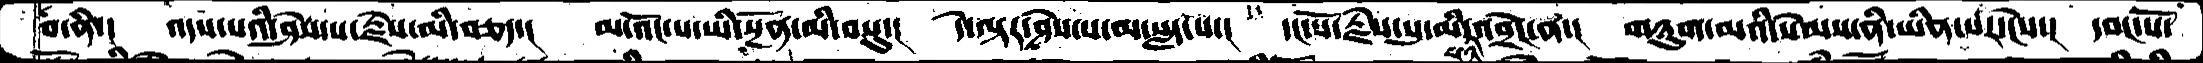བ་ནི་། འདས་པའི་ཤེས་པ་རྗེས་མི་བཅད་། མ་འོང་པ་ཡི་སྔོན་མི་བསུ་། དེ་ལྟར་ཤེས་པ་མ་སླད་པ་། དང་པོ་རྗེས་སུ་མི་འབྲེང་ན་། གཉུག་མའི་སེམས་ནི་ཡིན་པར་ངེས་། དབང་པོ་
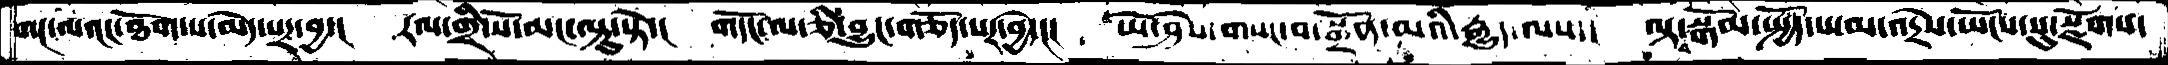གང་ལའང་ཐོག་པ་མེད་པར་བྱ་། རལ་གྲི་སོ་མང་ལྟུ་སྟེ་། གདོང་ལ་ཅི་བྱུང་གཅོད་པར་བྱེད་། ཡེ་ཤེས་གསང་བ་སྒྲོན་མའི་རྒྱུད་ལས་། ལྟ་བསྒོམ་སྤྱོད་པ་མ་འདྲེས་ཡོངས་སུ་སྫོགས་
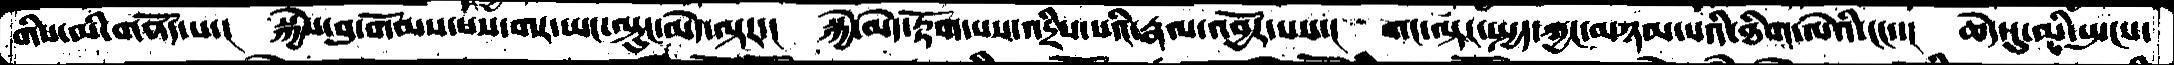གིས་མི་གནོད་པ་། སྐྱེས་བུ་གོམས་པས་གར་ཡང་ལྟུང་མེད་ལྟར་། སྐྱེ་མེད་རྟོག་པས་འདྲིས་པའི་རྣལ་འབྱོར་པས་། གང་ལྟར་སྤྱད་ཀྱང་མཉམ་པའི་ཐིག་ལེའི་ངང་་། ཆེད་དུ་མི་སྤངས་
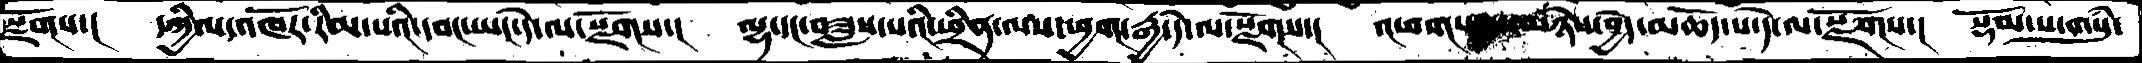སྫོགས་།  དཀྱིལ་འཁོར་རིམ་པའི་དབང་ཡང་དེ་ལ་སྫོགས་། ལྷ་དང་བཟླས་པའི་ཕྲིན་ལས་ཕྱག་རྒྱ་དེ་ལ་སྫོགས་། འཕགས་པས་མཉེས་བྱེད་མཆོད་པ་དེ་ལ་སྫོགས་། སྡོམ་པ་གསུཾ་
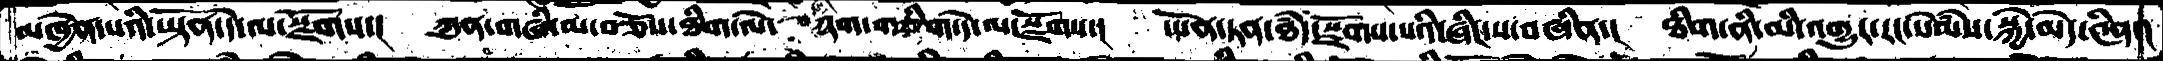མཁྱེན་པའི་ཡྟོན་དེ་ལ་སྫོགས་། ཀུན་གཞི་མ་བཅོས་ཐིག་ལེ་ཉག་གཅིག་དེ་ལ་སྫོགས་། ཡོན་ཏན་ཐཾད་སྫོགས་པའི་ཞིང་ས་བཞིན་། ཐིག་ནི་མི་འགྱུར་རང་སེམཾས་སྐྱེ་མེད་༤ིན་།
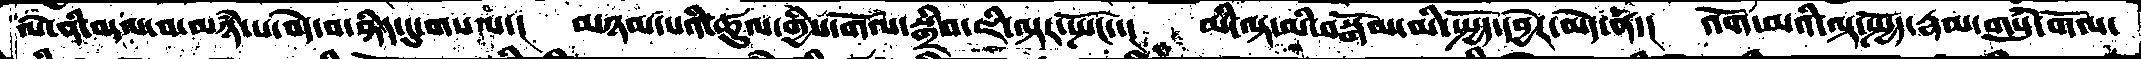ལེ་ནི་བདལ་བ་མཉཾ་པ་བདེ་བ་ཤིད་དུ་གསལ་། མཉམ་པའི་ཚུལ་གྱིས་གོལ་སྒྲིབ་ཇི་ལྟར་སྤོང་་། མི་ལྟ་མི་བསྒོམ་མི་སྤྱོད་དབྱེར་མེད་ནི་། འོག་མའི་ལྟ་སྤྱོད་རྣམ་གསུཾ་གོལ་
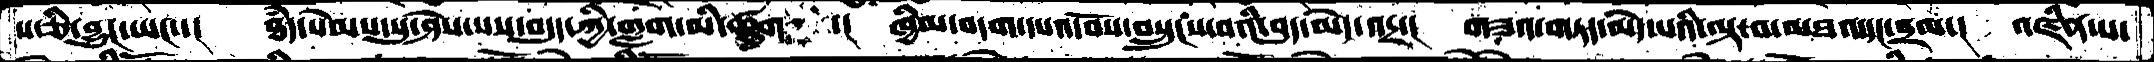པ་ཅི་བྱུང་ཡང་་། ཐཾད་སེམས་སུ་ཤེས་པས་བདུད་ཀྱི་གླག་མི་ཚུགས་། ཁྱིམ་བདག་དཔའ་བོས་བསྲུངས་བའི་བུད་མེད་འདྲ་། གཟའ་གཏད་མེད་པའི་ལྟ་བ་མཐའ་དང་བྲལ་། འཛིན་པ་
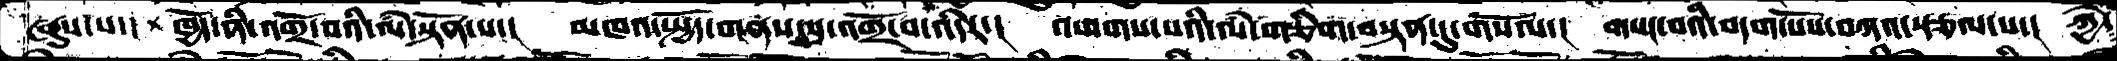ཞུས་པ་། ཁྱོད་ནི་འགྲོ་བའི་ལཾ་སྟོན་པ་། མཁའ་སྤྱོད་གནས་སུ་འགྲོ་བ་འདིར་། འགགས་པའི་ལཾ་གཅིག་བསྟན་དུ་གསོལ་། གསང་བའི་བདག་པོས་བཀའ་སྩལ་པ་། ཀྱེ༴
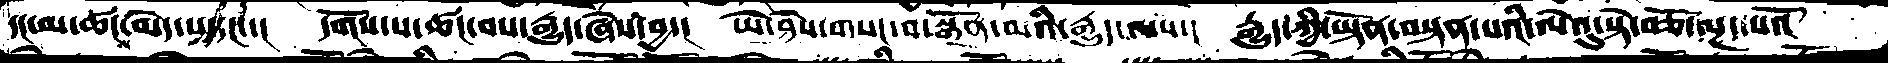དང་མ་ཚངས་མེད་པ་དང་། དགོས་པ་ཚང་བས་རྒྱུད་ཞེས་བྱ་། ཡེ་ཤེས་གསང་བ་སྒྲོན་མའི་རྒྱུད་ལས་། རྒྱུད་ཀྱི་ཡྟོན་བསྟན་པའི་ལེའུ་སྟེ་བཅོ་ལྔ་པའོ་།
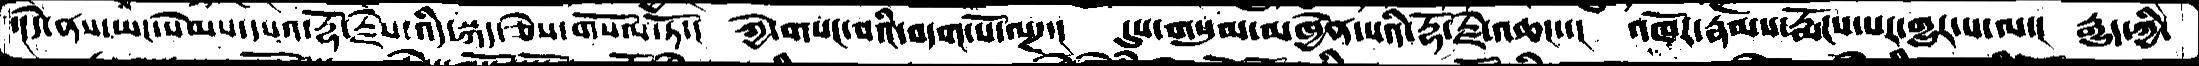་།དེ་ནས་ཡང་སེམས་དཔའ་རྡོ་རྗེས་འདི་སྐད་ཅེས་གསོལ་ཏོ་། ཀྱེ་གསང་བའི་བདག་པོ་ལཌ་། དུས་གསུམ་མཁྱེན་པའི་རྡོ་རྗེ་འཆང་་། འཁོར་རྣམས་རྨོངས་པར་གྱུར་པ་ལ་། རྒྱུད་ཀྱི་
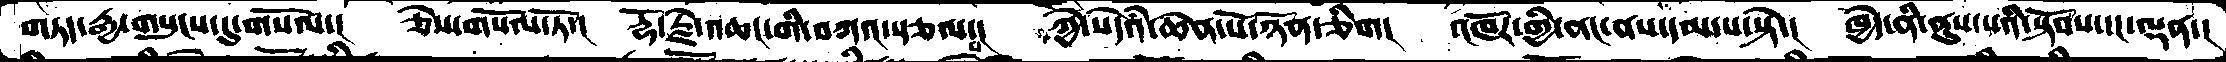གཏད་རྒྱ་གསུངས་དུ་གསོལ་། ཅེས་གསོལ་ཏོ་། རྡོ་རྗེ་འཆང་གི་བཀའ་སྩལ་པ་། ཀྱེ་སེདཾའ་ཆེན་པོ་ཉོན་ཅིག་། འཁོར་གྱི་ནང་ནས་དམ་པ་སྟེ་། ཁྱེད་ནི་ནུས་པའི་སྟོབས་དང་ལྡན་།
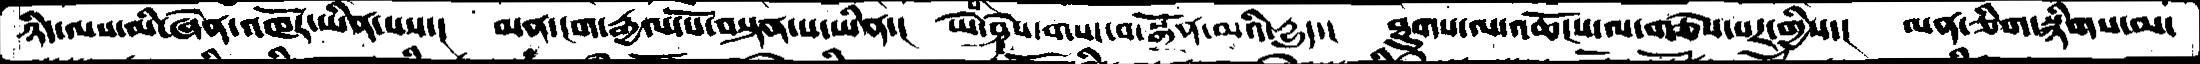ཉིད་ལས་མི་ཞེན་འཁོར་ཡིན་པས་། མན་ངག་རྒྱལ་པོ་བསྟན་པ་ཡིན་། ཡེ་ཤེས་གསང་བ་སྒྲོན་མའི་དྱུད་། ཐུགས་ལ་འཆོངས་ལ་གཅེས་པར་གྱིས་། ལན་ཅིག་སྙིགས་མ་
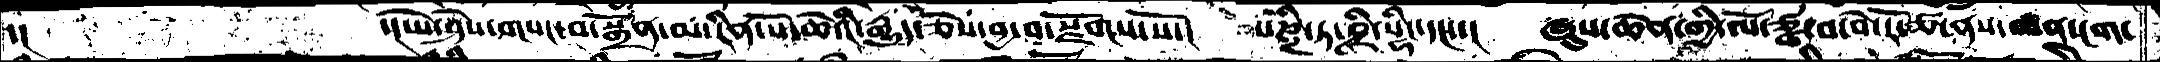་།       ་།ཡེ་ཤེས་གསང་བ་སྒྲོན་མ་རིན་པོ་ཆེའི་རྒྱུད་ཅེས་བྱ་བ་སྫོགས་སོ་། པཎྚི་ཏ་ཤྲི་སིངྷ་དང་་། ཞུས་ཆེན་གྱི་ལོ་ཙྪ་བ་བེ་རོ་ཙ་ནས་མན་ངག་
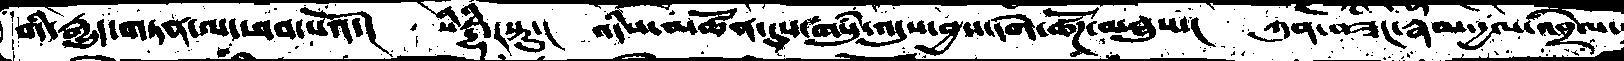གི་རྒྱུད་གཏན་ལ་ཕབ་པའོ་། སིཏྡྷི་རསྟུ་། འདིས་མཚོན་དུས་གསུཾ་འདུས་བྱས་དགེ་ཚོཌ་མཐུས་། ཀུན་བཟང་རྣམ་རྒྱལ་འབྲེལ་
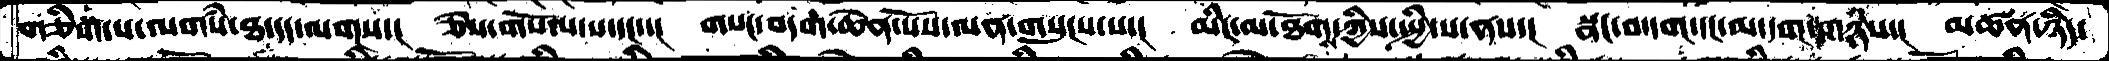གཅིག་པ་ལགསཾ་ཐ་དད་ལགས་། ཅེས་གསོལ་པ་དང་་། གསང་བདག་ཆེན་པོས་ལན་གསུངས་པ་། མིང་མ་ཐོགས་ཀྱིས་སྤྱི་པ་ནས་། སྣང་བ་དག་དང་མ་དག་གཉིས་། མཚན་ཉིད་
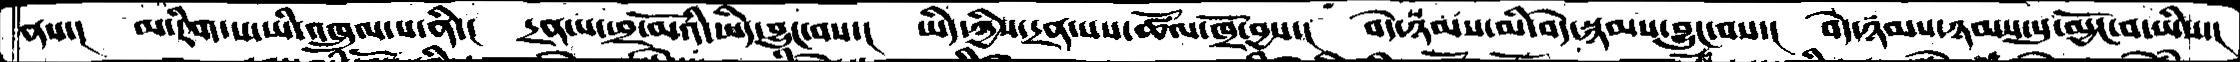ནས་།   མ་རིག་པ་ཡི་འཁྲུལ་པ་ནི་། དྲན་པ་ཕྲ་མོའི་ཡིད་བྱུང་བས་། ཡིད་ཀྱིས་དྲན་པས་ཚོལ་ཁྲོ་བྱས་། བདེ་སྙམས་མི་བདེ་སྙམས་བྱུང་བས་། བདེ་ཉམས་ཉམས་སུ་མྱོང་བ་ཡིས་།
